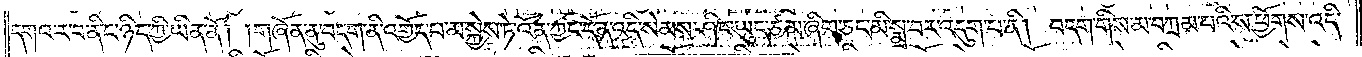དགའ་ར་བ་ནི་ང་ཉིད་ཀྱི་ཡིན་ནོ། །གཞོན་ནུ་བདག་ནི་འགྱོད་པ་མ་སྐྱེས་ཏེ་འོན་ཀྱང་དོན་འདི་སེམས་ཤིང་ཡུད་ཙམ་ཞིག་ཅང་མི་སྨྲ་བར་འདུག་པ་ནི། བདག་གིས་མ་བཀྲམ་པའི་ས་ཕྱོགས་འདི་
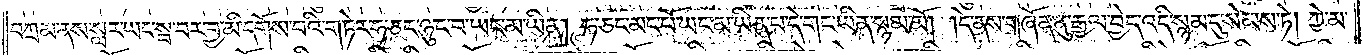བཀྲམ་ནས་སླར་ཡང་སྦ་བར་བྱ་མི་དགོས་པའི་གཏེར་ཧ་ཅང་ཉུང་བ་ཡང་མ་ཡིན། ཧ་ཅང་མང་པོ་ཡང་མ་ཡིན་པ་དེ་གང་ཡིན་སྙམ་མོ། དེ་ནས་གཞོན་ནུ་རྒྱལ་བྱེད་འདི་སྙམ་དུ་སེམས་ཏེ། ཀྱེ་མ་
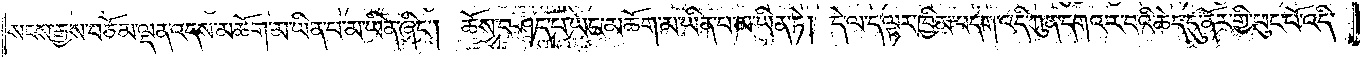སངས་རྒྱས་བཅོམ་ལྡན་འདས་མཆོག་མ་ཡིན་པ་མ་ཡིན་ཞིང༌། ཆོས་བཤད་པ་ཡང་མཆོག་མ་ཡིན་པ་མ་ཡིན་ཏེ། དེ་ལ་ད་ལྟར་ཁྱིམ་བདག་འདི་ཀུན་དགའ་ར་བའི་ཆེད་དུ་ནོར་གྱི་ཕུང་པོ་འདི་
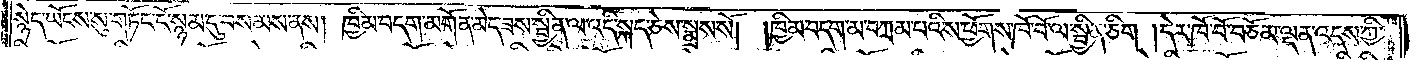སྙེད་ཡོངས་སུ་གཏོང་ངོ་སྙམ་དུ་བསམས་ནས། ཁྱིམ་བདག་མགོན་མེད་ཟས་སྦྱིན་ལ་འདི་སྐད་ཅེས་སྨྲས་སོ། །ཁྱིམ་བདག་མ་བཀྲམ་པའི་ས་ཕྱོགས་ཁོ་བོ་ལ་སྦྱིན་ཅིག །དེར་ཁོ་བོ་བཅོམ་ལྡན་འདས་ཀྱི་
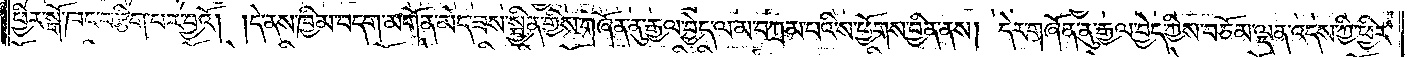ཕྱིར་སྒོ་ཁང་བརྩིག་པར་བྱའོ། །དེ་ནས་ཁྱིམ་བདག་མགོན་མེད་ཟས་སྦྱིན་གྱིས་གཞོན་ནུ་རྒྱལ་བྱེད་ལ་མ་བཀྲམ་པའི་ས་ཕྱོགས་བྱིན་ནས། དེར་གཞོན་ནུ་རྒྱལ་བྱེད་ཀྱིས་བཅོམ་ལྡན་འདས་ཀྱི་ཕྱིར་
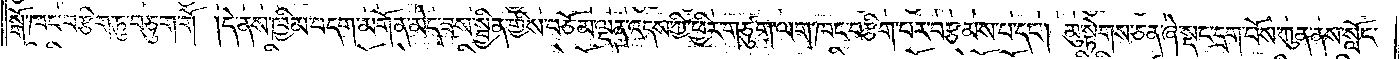སྒོ་ཁང་བརྩིག་ཏུ་བཅུག་གོ །དེ་ནས་ཁྱིམ་བདག་མགོན་མེད་ཟས་སྦྱིན་གྱིས་བཅོམ་ལྡན་འདས་ཀྱི་ཕྱིར་གཙུག་ལག་ཁང་བརྩིག་པར་བརྩམས་པ་དང༌། མུ་སྟེགས་ཅན་ཞེ་སྡང་དྲག་པོས་ཀུན་ནས་སློང་
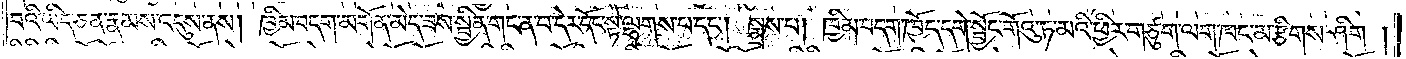བའི་ཡིད་ཅན་རྣམས་འདུས་ནས། ཁྱིམ་བདག་མགོན་མེད་ཟས་སྦྱིན་གང་ན་བ་དེར་དོང་སྟེ་ལྷགས་པ་དང༌། སྨྲས་པ། ཁྱིམ་བདག་ཁྱོད་དགེ་སྦྱོང་གོའུ་ཏ་མའི་ཕྱིར་གཙུག་ལག་ཁང་མ་རྩིགས་ཤིག །
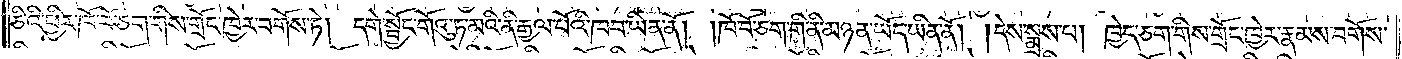ཅིའི་ཕྱིར་ཁོ་བོ་ཅག་གིས་གྲོང་ཁྱེར་བགོས་ཏེ། དགེ་སྦྱོང་གོའུ་ཏ་མའི་ནི་རྒྱལ་པོའི་ཁབ་ཡིན་ནོ། །ཁོ་བོ་ཅག་གི་ནི་མཉན་ཡོད་ཡིན་ནོ། །དེས་སྨྲས་པ། ཁྱེད་ཅག་གིས་གྲོང་ཁྱེར་རྣམས་བགོས་
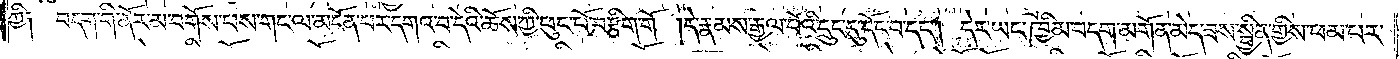ཀྱི༑ བདག་གི་ནོར་མ་བགོས་པས་གང་ལ་མངོན་པར་དགའ་བ་དེའི་ཆོས་ཀྱི་ཕུང་པོ་བརྩིག་གོ །དེ་རྣམས་རྒྱལ་པོའི་དྲུང་དུ་དོང་བ་དང༌། དེར་ཡང་ཁྱིམ་བདག་མགོན་མེད་ཟས་སྦྱིན་གྱིས་ཕམ་པར་
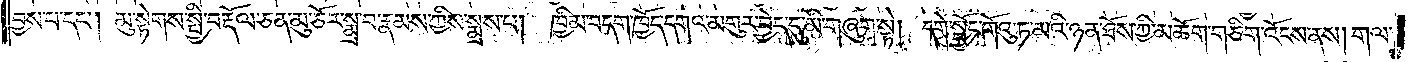བྱས་པ་དང༌། མུ་སྟེགས་སྤྱི་བརྟོལ་ཅན་མུ་ཅོར་སྨྲ་བ་རྣམས་ཀྱིས་སྨྲས་པ། ཁྱིམ་བདག་ཁྱོད་དགའ་མགུར་བྱེད་དུ་མི་གཞུག་སྟེ། དགེ་སྦྱོང་གོའུ་ཏ་མའི་ཉན་ཐོས་ཀྱི་མཆོག་གཅིག་འོངས་ནས། གལ་
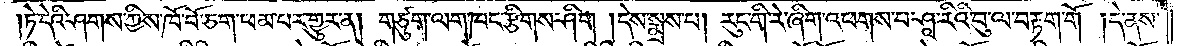ཏེ་དེའི་ཤགས་ཀྱིས་ཁོ་བོ་ཅག་ཕམ་པར་གྱུར་ན། གཙུག་ལག་ཁང་རྩིགས་ཤིག །དེས་སྨྲས་པ། རུང་གི་རེ་ཞིག་འཕགས་པ་ཤཱ་རིའི་བུ་ལ་བརྟག་གོ །དེ་ནས་
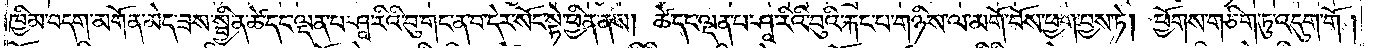ཁྱིམ་བདག་མགོན་མེད་ཟས་སྦྱིན་ཚེ་དང་ལྡན་པ་ཤཱ་རིའི་བུ་གང་ན་བ་དེར་སོང་སྟེ་ཕྱིན་ནས། ཚེ་དང་ལྡན་པ་ཤཱ་རིའི་བུའི་རྐང་བ་གཉིས་ལ་མགོ་བོས་ཕྱག་བྱས་ཏེ། ཕྱོགས་གཅིག་ཏུ་འདུག་གོ །
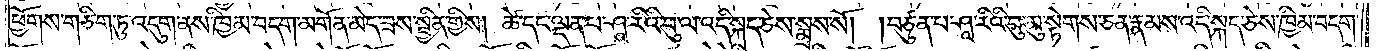ཕྱོགས་གཅིག་ཏུ་འདུག་ནས་ཁྱིམ་བདག་མགོན་མེད་ཟས་སྦྱིན་གྱིས། ཚེ་དང་ལྡན་པ་ཤཱ་རིའི་བུ་ལ་འདི་སྐད་ཅེས་སྨྲས་སོ། །བཙུན་པ་ཤཱ་རིའི་བུ་མུ་སྟེགས་ཅན་རྣམས་འདི་སྐད་ཅེས་ཁྱིམ་བདག་
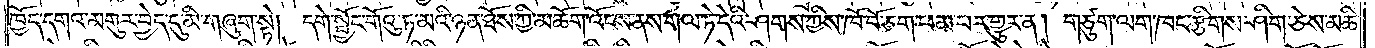ཁྱོད་དགའ་མགུར་བྱེད་དུ་མི་གཞུག་སྟེ། དགེ་སྦྱོང་གོའུ་ཏ་མའི་ཉན་ཐོས་ཀྱི་མཆོག་འོངས་ནས་གལ་ཏེ་དེའི་ཤགས་ཀྱིས་ཁོ་བོ་ཅག་ཕམ་པར་གྱུར་ན། གཙུག་ལག་ཁང་རྩིགས་ཤིག་ཅེས་མཆི་
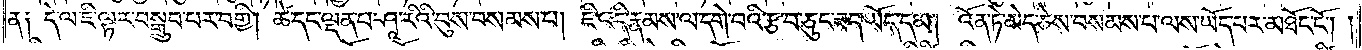ན༑ དེ་ལ་ཇི་ལྟར་བསྒྲུབ་པར་བགྱི། ཚེ་དང་ལྡན་པ་ཤཱ་རིའི་བུས་བསམས་པ། ཇི་འདི་རྣམས་ལ་དགེ་བའི་རྩ་བ་ཅུང་ཟད་ཡོད་དམ། འོན་ཏེ་མེད་ཅེས་བསམས་པ་ལས་ཡོད་པར་མཐོང་ངོ༌། །
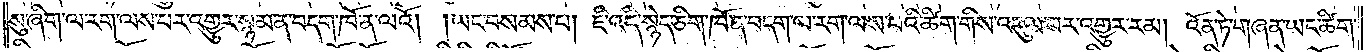སུ་ཞིག་ལ་རག་ལས་པར་འགྱུར་སྙམ་ན་བདག་ཁོ་ན་ལའོ། །ཡང་བསམས་པ། ཇི་འདི་སྙེད་ཅིག་ཁོ་ན་བདག་ལ་རག་ལས་པའི་ཚིག་གིས་འདུལ་བར་འགྱུར་རམ། འོན་ཏེ་གཞན་ཡང་ཚིག་
